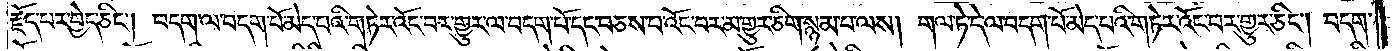རྗོད་པར་བྱེད་ཅིང༌། བདག་ལ་བདག་པོ་མེད་པའི་གཏེར་འོང་བར་གྱུར་ལ་བདག་པོ་དང་བཅས་པ་འོང་བར་མ་གྱུར་ཅིག་སྙམ་པ་ལས། གལ་ཏེ་དེ་ལ་བདག་པོ་མེད་པའི་གཏེར་འོང་བར་གྱུར་ཅིང༌། བདག་
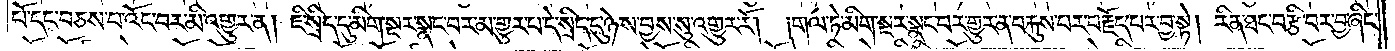པོ་དང་བཅས་པ་འོང་བར་མི་འགྱུར་ན། ཇི་སྲིད་དུ་མིག་སྔར་སྣང་བར་མ་གྱུར་པ་དེ་སྲིད་དུ་ཉེས་བྱས་སུ་འགྱུར་རོ། །གལ་ཏེ་མིག་སྔར་སྣང་བར་གྱུར་ན་བརྐུས་པར་བརྗོད་པར་བྱ་སྟེ། རིན་ཐང་བརྩི་བར་བྱ་ཞིང་
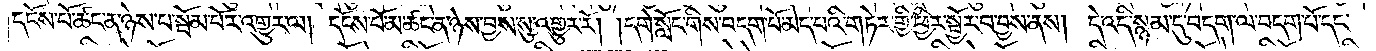དངོས་པོ་ཚང་ན་ཉེས་པ་སྦོམ་པོར་འགྱུར་ལ། དངོས་པོ་མ་ཚང་ན་ཉེས་བྱས་སུ་འགྱུར་རོ། །དགེ་སློང་གིས་བདག་པོ་མེད་པའི་གཏེར་གྱི་ཕྱིར་སྦྱོར་བ་བྱས་ནས། དེ་འདི་སྙམ་དུ་བདག་ལ་བདག་པོ་དང་
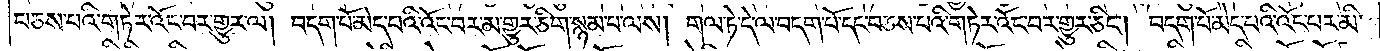བཅས་པའི་གཏེར་འོང་བར་གྱུར་ལ། བདག་པོ་མེད་པའི་འོང་བར་མ་གྱུར་ཅིག་སྙམ་པ་ལས། གལ་ཏེ་དེ་ལ་བདག་པོ་དང་བཅས་པའི་གཏེར་འོང་བར་གྱུར་ཅིང༌། བདག་པོ་མེད་པའི་འོང་པར་མི་
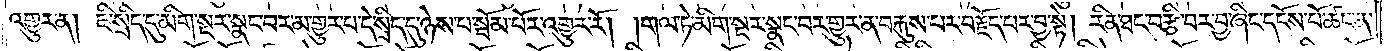འགྱུར་ན། ཇི་སྲིད་དུ་མིག་སྔར་སྣང་བར་མ་གྱུར་པ་དེ་སྲིད་དུ་ཉེས་པ་སྦོམ་པོར་འགྱུར་རོ། །གལ་ཏེ་མིག་སྔར་སྣང་བར་གྱུར་ན་བརྐུས་པར་བརྗོད་པར་བྱ་སྟེ། རིན་ཐང་བརྩི་བར་བྱ་ཞིང་དངོས་པོ་ཚང་ན་
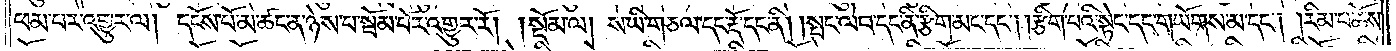ཕམ་པར་འགྱུར་ལ། དངོས་པོ་མ་ཚང་ན་ཉེས་པ་སྦོམ་པོར་འགྱུར་རོ། །སྡོམ་ལ། ས་ཡི་གཅལ་དང་རྡོ་དང་ནི། །སྤང་ལེབ་དང་ནི་རྩིག་མང་དང༌། །རྩིག་པའི་སྟེང་དང་གཡོགས་མ་དང༌། །རིམ་པ་ཆོས་
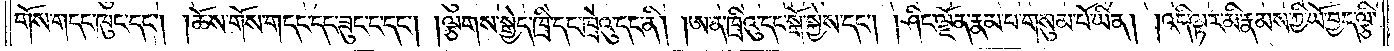གོས་གདང་ཁུང་དང༌། །ཆོས་གོས་གདང་དང་ཟུང་ང་དང༌། །ལྕགས་སྒྱེད་ཁྲི་དང་ཁྲེའུ་དང་ནི། །ཨ་ན་ཁྲིའུ་དང་སྒོ་སྐྱེས་དང༌། །ཤིང་ལྗོན་རྣམ་པ་གསུམ་པོ་ཡིན། །འདི་ལྟར་མི་རྣམས་ཀྱི་ཡོ་བྱད་ལྕི་
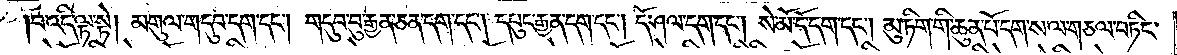།བ་འདི་ལྟ་སྟེ། མགུལ་གདུབ་དག་དང༌། གདུབ་བུ་རྒྱན་ཅན་དག་དང༌། དཔུང་རྒྱན་དག་དང༌། དོ་ཤལ་དག་དང༌། སེ་མོ་དོ་དག་དང༌། མུ་ཏིག་གི་ཆུན་པོ་དག་ས་ལ་གཅལ་བཏིང་
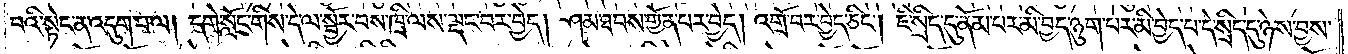བའི་སྟེང་ན་འདུག་པ་ལ། དགེ་སློང་གིས་དེ་ལ་སྦྱོར་བས་ཁྲི་ལས་ལྡང་བར་བྱེད། ཤམ་ཐབས་གྱོན་པར་བྱེད། འགྲོ་བར་བྱེད་ཅིང༌། ཇི་སྲིད་དུ་ནོམ་པར་མི་བྱད་ཉུག་པར་མི་བྱེད་པ་དེ་སྲིད་དུ་ཉེས་བྱས་
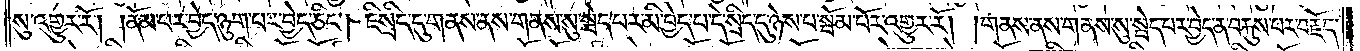སུ་འགྱུར་རོ། །ནོམ་པར་བྱེད་ཉུག་པར་བྱེད་ཅིང༌། ཇི་སྲིད་དུ་གནས་ནས་གནས་སུ་སྦེད་པར་མི་བྱེད་པ་དེ་སྲིད་དུ་ཉེས་པ་སྦོམ་པོར་འགྱུར་རོ། །གནས་ནས་གནས་སུ་སྦེད་པར་བྱེད་ན་བརྐུས་པར་བརྗོད་
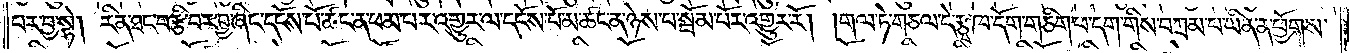པར་བྱ་སྟེ། རིན་ཐང་བརྩི་བར་བྱ་ཞིང་དངོས་པོ་ཚང་ན་ཕམ་པར་འགྱུར་ལ་དངོས་པོ་མ་ཚང་ན་ཉེས་པ་སྦོམ་པོར་འགྱུར་རོ། །གལ་ཏེ་གཅལ་ཏེ་རྩྭ་ཁ་དོག་གཅིག་པ་དག་གིས་བཀྲམ་པ་ཡིན་ན་ཕྱོགས་
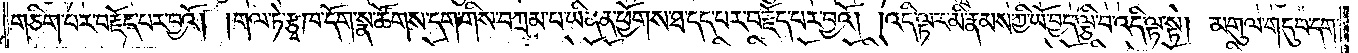གཅིག་པར་བརྗོད་པར་བྱའོ། །གལ་ཏེ་རྩྭ་ཁ་དོག་སྣ་ཚོགས་དག་གིས་བཀྲམ་པ་ཡིན་ན་ཕྱོགས་ཐ་དད་པར་བརྗོད་པར་བྱའོ། །འདི་ལྟར་མི་རྣམས་ཀྱི་ཡོ་བྱད་ལྕི་བ་འདི་ལྟ་སྟེ། མགུལ་གདུབ་དག་
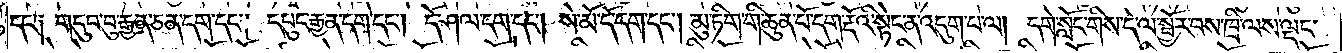དང་༑ གདུབ་བུ་རྒྱན་ཅན་དག་དང༌། དཔུང་རྒྱན་དག་དང༌། དོ་ཤལ་དག་དང༌། སེ་མོ་དོ་དག་དང༌། མུ་ཏིག་གི་ཆུན་པོ་དག་རྡོའི་སྟེང་ན་འདུག་པ་ལ། དགེ་སློང་གིས་དེ་ལ་སྦྱོར་བས་ཁྲི་ལས་ལྡང་
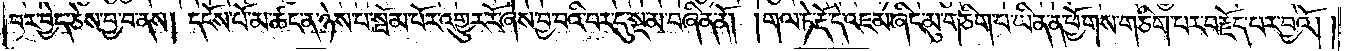བར་བྱེད་ཅེས་བྱ་བ་ནས། དངོས་པོ་མ་ཚང་ན་ཉེས་པ་སྦོམ་པོར་འགྱུར་རོ་ཞེས་བྱ་བའི་བར་དུ་སྔ་མ་བཞིན་ནོ། །གལ་ཏེ་རྡོ་དེ་འཇམ་ཞིང་མུ་གཅིག་པ་ཡིན་ན་ཕྱོགས་གཅིག་པར་བརྗོད་པར་བྱའོ། །
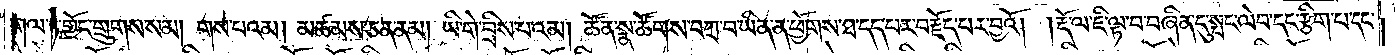གལ་ཏེ་གྱོང་གྲུགས་སམ། གས་པའམ། མཚམས་ཅན་ནམ། ཡི་གེ་བྲིས་པའམ། ཚོན་སྣ་ཚོགས་བཀྲ་བ་ཡིན་ན་ཕྱོགས་ཐ་དད་པར་བརྗོད་པར་བྱའོ། །རྡོ་ལ་ཇི་ལྟ་བ་བཞིན་དུ་སྤང་ལེབ་དང་རྩིག་པ་དང་
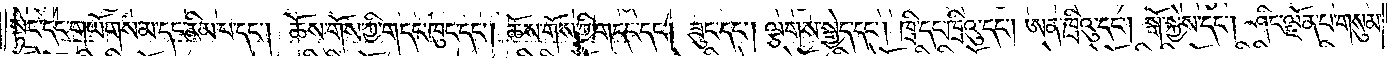སྟེང་དང་གཡོགས་མ་དང་རིམ་པ་དང༌། ཆོས་གོས་ཀྱི་གདང་ཁུང་དང༌། ཆོས་གོས་ཀྱི་གདང་དང༌། ཟུང་དང༌། ལྕགས་སྒྱེད་དང༌། ཁྲི་དང་ཁྲིའུ་དང༌། ཨན་ཁྲིའུ་དང༌། སྒོ་སྐྱེས་དང༌། ཤིང་ལྗོན་པ་གསུམ་
